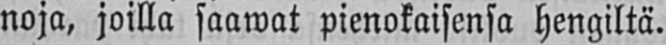noja, joilla saawat pienokaisensa hengiltä.
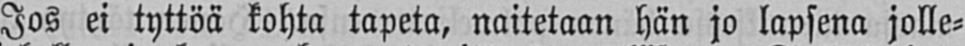Jos ei tyttöä kohta tapeta, naitetaan hän jo lapsena jolle-
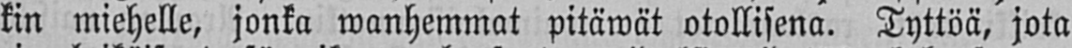kin miehelle, jonka wanhemmat pitäwät otollisena. Tyttöä, jota
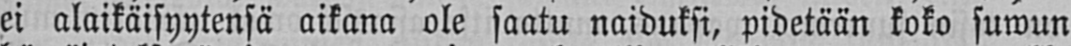ei alaikäisyytensä aikana ole saatu naiduksi, pidetään koko suwun
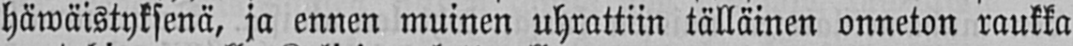häwäistyksenä, ja ennen muinen uhrattiin tälläinen onneton raukka
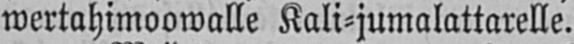wertahimoowalle Kali-jumalattarelle.
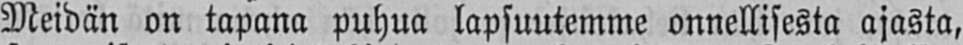Meidän on tapana puhua lapsuutemme onnellisesta ajasta,
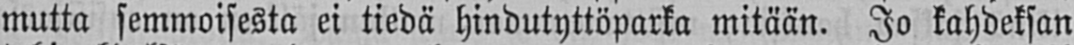mutta semmoisesta ei tiedä hindutyttöparka mitään. Jo kahdeksan
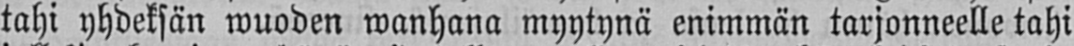tahi yhdeksän wuoden wanhana myytynä enimmän tarjonneelle tahi
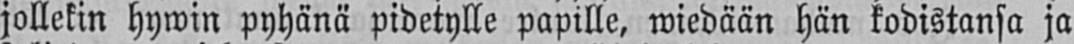jollekin hywin pyhänä pidetylle papille, wiedään hän kodistansa ja
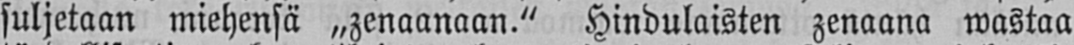suljetaan miehensä „zenaanaan." Hindulaisten zenaana wastaa
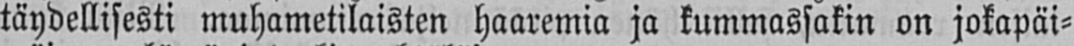täydellisesti muhametilaisten haaremia ja kummassakin on jokapäi-
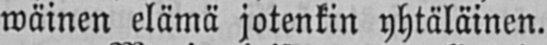wäinen elämä jotenkin yhtäläinen.
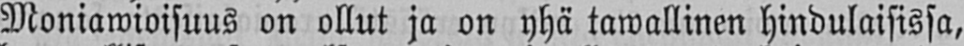Moniawioisuus on ollut ja on yhä tawallinen hindulaisissa,
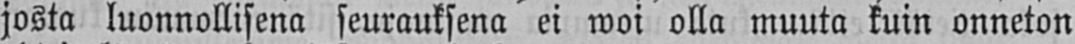josta luonnollisena seurauksena ei woi olla muuta kuin onneton
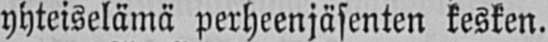yhteiselämä perheenjäsenten kesken.
